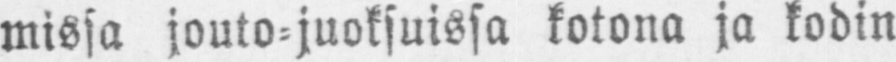missä jouto-juoksuissa kotona ja kodin
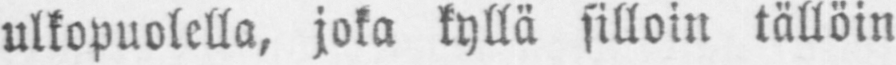ulkopuolella, joka kyllä silloin tällöin
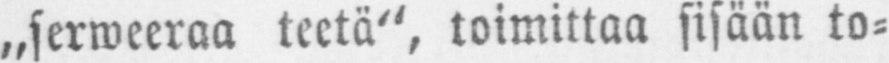„serweeraa teetä", toimittaa sisään to-
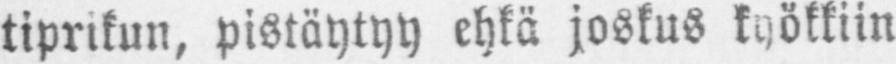tiprikun, pistäytyy ehkä joskus kyökkiin
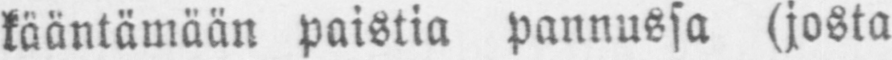kääntämään paistia pannussa (josta
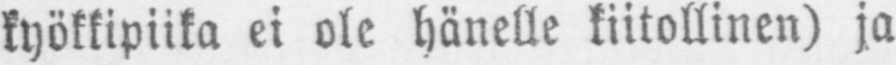kyökkipiika ei ole hänelle kiitollinen) ja
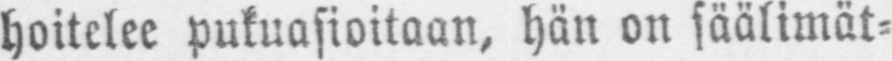hoitelee pukuasioitaan, hän on säälimät-
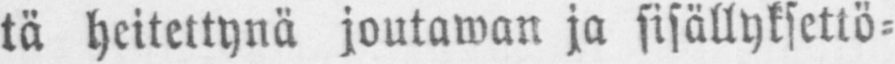tä heitettynä joutawan ja sisällyksettö-
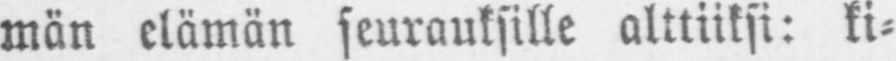män elämän seurauksille alttiiksi: ki-
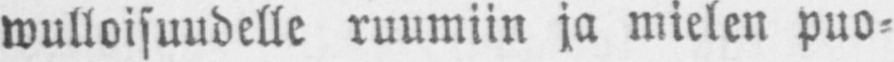wulloisuudelle ruumiin ja mielen puo-
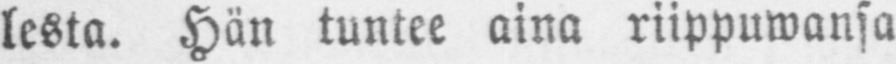lesta. Hän tuntee aina riippuwansa
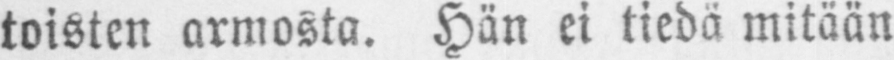toisten armosta. Hän ei tiedä mitään
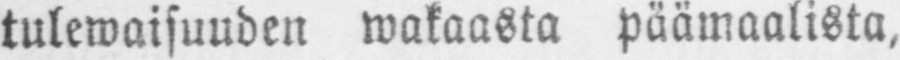tulewaisuuden wakaasta päämaalista,
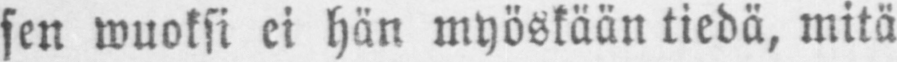sen wuoksi ei hän myöskään tiedä, mitä
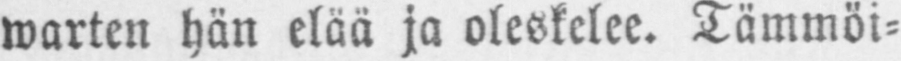warten hän elää ja oleskelee. Tämmöi-
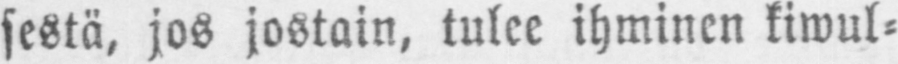sestä, jos jostain, tulee ihminen kiwul-
